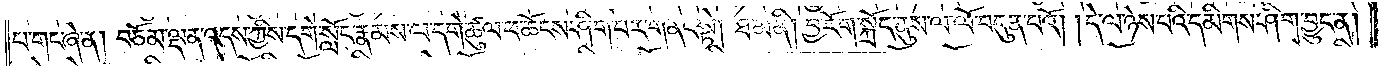པ་གང་ཞེ་ན། བཅོམ་ལྡན་འདས་ཀྱིས་དགེ་སློང་རྣམས་ལ་དགེ་ཚུལ་ཕ་ཆོངས་ཤིག་པར་གནང་སྟེ། ཐ་མ་ནི། བྱ་རོག་སྐྲོད་ནུས་ལ་ལོ་བདུན་པའོ། །དེ་ལ་ཉེས་པའི་དམིགས་ཤིག་བྱུང་ན།
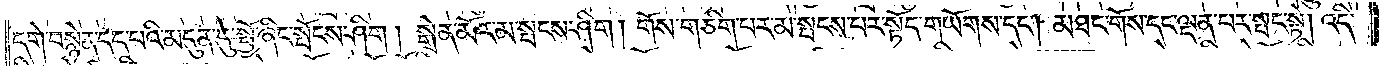དགེ་བསྙེན་དད་པའི་མདུན་དུ་སྤྱོ་ཞིང་སྤོངས་ཤིག། སྒྲེན་མོར་མ་སྤངས་ཤིག། གོས་གཅིག་པར་མ་སྤངས་པར་སྟོད་གཡོགས་དང༌། མཐང་གོས་དང་ལྡན་པར་སྤང་སྟེ། འདི་
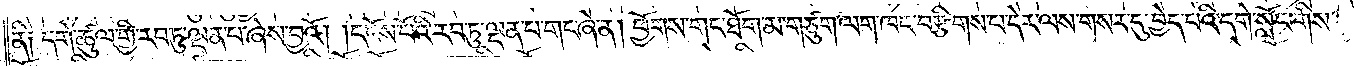ནི༑ དགེ་ཚུལ་གྱི་རབ་ཏུ་ལྡན་པ་ཞེས་བྱའོ། །དངོས་པོའི་རབ་ཏུ་ལྡན་པ་གང་ཞེ་ན། ཕྱོགས་གང་ཐོག་མ་གཙུག་ལག་ཁང་བརྩིགས་པ་དེར་ལས་གསར་དུ་བྱེད་པའི་དགེ་སློང་གིས་
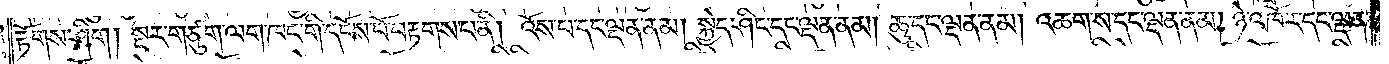རྟོགས་ཤིག། སྔར་གཙུག་ལག་ཁང་གི་དངོས་པོ་བརྟགས་པ་ནི། འོས་པ་དང་ལྡན་ནམ། སྐྱེད་ཤིང་དང་ལྡན་ནམ། ཆུ་དང་ལྡན་ནམ། འཆག་ས་དང་ལྡན་ནམ། ཉེ་འཁོར་དང་ལྡན་
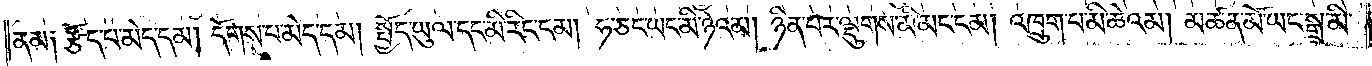ནམ༑ རྩོད་པ་མེད་དམ། དོགས་པ་མེད་དམ། སྤྱོད་ཡུལ་དང་མི་རིང་ངམ། ཧ་ཅང་ཡང་མི་ཉེའམ། ཉིན་པར་ལྡུགས་མི་མང་ངམ། འཁྲུག་པ་མི་ཆེའམ། མཚན་མོ་ཡང་སྒྲ་མི་
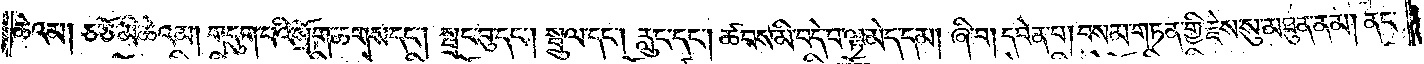ཆེའམ། ཅ་ཅོ་མི་ཆེའམ། གདུག་པའི་སྲོག་ཆགས་དང༌། སྦྲང་བུ་དང༌། སྦྲུལ་དང༌། རླུང་དང༌། ཚབས་མི་བདེ་བ་ལྟ་མེད་དམ། ཞི་བ། དབེན་པ། བསམ་གཏན་གྱི་རྗེས་སུ་མཐུན་ནམ། ནང་
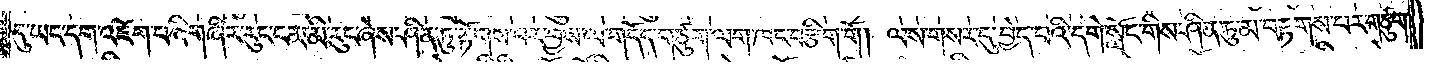དུ་ཡང་དག་འཇོག་པའི་གཞིར་རུང་ངམ་མི་རུང་ཞེས་ཤིན་ཏུ་རྟོགས་པར་བྱས་ལ་གདོད་གཙུག་ལག་ཁང་བརྩིག་གོ། ལས་གསར་དུ་བྱེད་པའི་དགེ་སློང་གིས་ཤིན་ཏུ་མ་བརྟགས་པར་གཙུག་
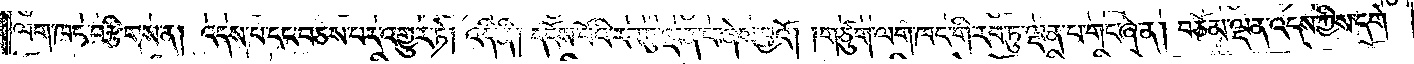ལག་ཁང་བརྩིགས་ན། འདས་པ་དང་བཅས་པར་འགྱུར་ཏེ། འདི་ནི། དངོས་པོའི་རབ་ཏུ་ལྡན་པ་ཞེས་བྱའོ། །གཙུག་ལག་ཁང་གི་རབ་ཏུ་ལྡན་པ་གང་ཞེ་ན། བཅོམ་ལྡན་འདས་ཀྱིས་དགེ་
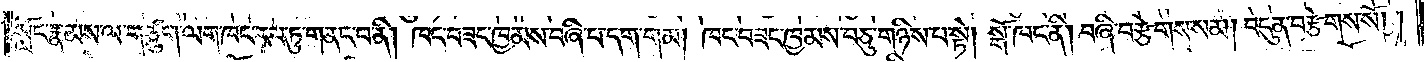སློང་རྣམས་ལ་གཙུག་ལག་ཁང་རབ་ཏུ་གནང་བ་ནི། ཁང་བཟང་ཁྱམས་བཞི་པ་དག་གམ། ཁང་བཟང་ཁྱམས་བཅུ་གཉིས་པ་སྟེ། སྒོ་ཁང་ནི། བཞི་བརྩེགས་སམ། བདུན་བརྩེགས་སོ། །
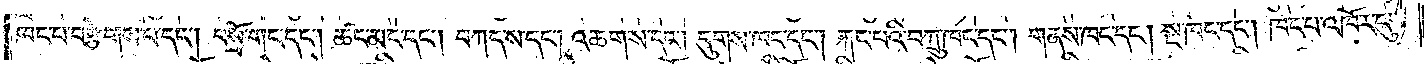ཁང་པ་བརྩེགས་པ་དང༌། བསྲོ་གང་དང༌། ཚང་མང་དང༌། བཀད་ས་དང༌། འཆགས་དང༌། དུགས་ཁང་དང༌། རྐང་པའི་བཀྲུ་ཁང་དང༌། གནས་ཁང་དང༌། སྔ་ཁང་དང༌། ཁང་པ་འཁོར་དུ་
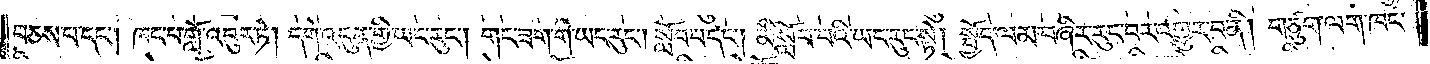བཅས་པ་དང༌། ཁང་པ་གློ་འབུར་ཏེ། དགེ་འདུན་གྱི་ཡང་རུང༌། གང་ཟག་གི་ཡང་རུང༌། སློབ་པ་དང༌། མི་སློབ་པའི་ཡང་རུང་སྟེ། སྤྱོད་ལམ་བཞིར་རུང་བར་འགྱུར་བ་ནི། གཙུག་ལག་ཁང་
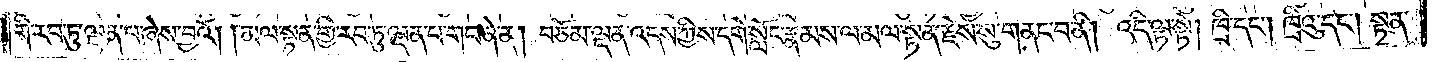གི་རབ་ཏུ་ལྡན་པ་ཞེས་བྱའོ། །མལ་སྟན་གྱི་རབ་ཏུ་ལྡན་པ་གང་ཞེ་ན། བཅོམ་ལྡན་འདས་ཀྱིས་དགེ་སློང་རྣམས་ལ་མལ་སྟན་རྗེས་སུ་གནང་བ་ནི། འདི་ལྟ་སྟེ། ཁྲི་དང༌། ཁྲིའུ་དང༌། སྟན་
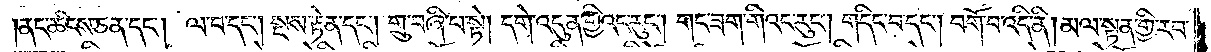ནང་ཚངས་ཅན་དང༌། ལ་བ་དང༌། སྔས་རྟེན་དང༌། གྲུ་བཞི་པ་སྟེ། དགེ་འདུན་གྱིའང་རུང༌། གང་ཟག་གིའང་རུང༌། གདིང་བ་དང༌། བགོ་བ་འདི་ནི། མལ་སྟན་གྱི་རབ་
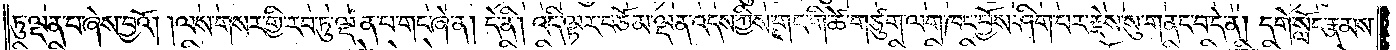ཏུ་ལྡན་པ་ཞེས་བྱའོ། །ལས་གསར་གྱི་རབ་ཏུ་ལྡན་པ་གང་ཞེ་ན། དེ་ནི། འདི་ལྟར་བཅོམ་ལྡན་འདས་ཀྱིས་གང་གི་ཚེ་གཙུག་ལག་ཁང་བྱོས་ཤིག་པར་རྗེས་སུ་གནང་བ་དེ་ན། དགེ་སློང་རྣམས་
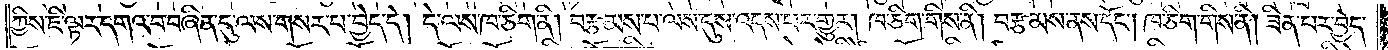ཀྱིས་ཇི་ལྟར་དགའ་བ་བཞིན་དུ་ལས་གསར་པ་བྱེད་དེ། དེ་ལས་ཁ་ཅིག་ནི། བརྩམས་པ་ལས་དུས་འདས་པར་གྱུར། ཁ་ཅིག་གིས་ནི། བརྩམས་ནས་དོང༌། ཁ་ཅིག་གིས་ནི། ཟིན་པར་བྱེད་
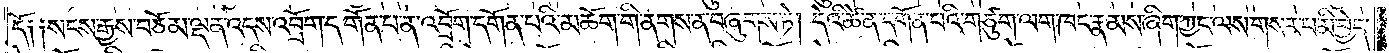དོ༑ ༑སངས་རྒྱས་བཅོམ་ལྡན་འདས་འབྲོག་དགོན་པ་ན་འབྲོག་དགོན་པའི་མཆོག་གི་ནགས་ན་བཞུགས་ཏེ། དེའི་ཚེ་ན་དགོན་པའི་གཙུག་ལག་ཁང་རྣམས་ཞིག་ཀྱང་ལས་གསར་པ་མི་བྱེད་
